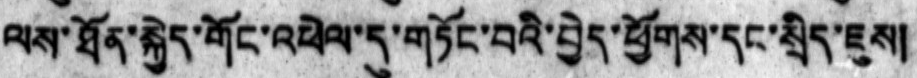ལས་ཐོན་སྐྱེད་གོང་འཕེལ་དུ་གཏོང་བའི་བྱེད་ཕྱོགས་དང་སྲིད་ཇུས།
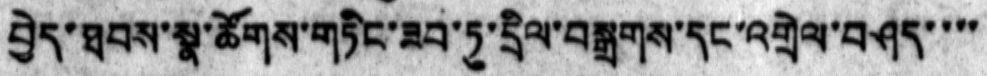བྱེད་ཐབས་སྣ་ཚོགས་གཏིང་ཟབ་ཏུ་དྲིལ་བསྒྲགས་དང་འགྲེལ་བཤད་་་་
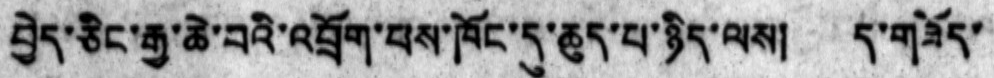བྱེད་ཅིང་རྒྱ་ཆེ་བའི་འབྲོག་པས་ཁོང་དུ་ཆུད་པ་ཉིད་ལས། ད་གཟོད་
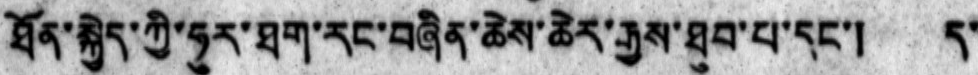ཐོན་སྐྱེད་ཀྱི་ཧུར་ཐག་རང་བཞིན་ཆེས་ཆེར་རྒྱས་ཐུབ་པ་དང་། ད་
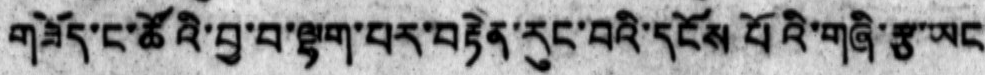གཟོད་ང་ཚོའི་བྱ་བ་ལྷག་པར་བརྟེན་རུང་བའི་དངོས པོའི་གཞི་རྩ་ཡང
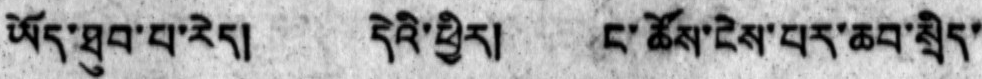ཡོད་ཐུབ་པ་རེད། དེའི་ཕྱིར། ང་ཚོས་ངེས་པར་ཆབ་སྲིད་
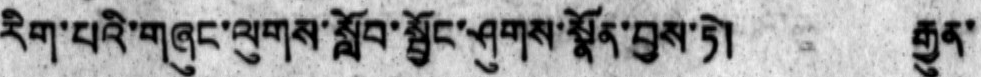རིག་པའི་གཞུང་ལུགས་སློབ་སྦྱོང་ཤུགས་སྣོན་བྱས་ཏེ། རྒྱུན་
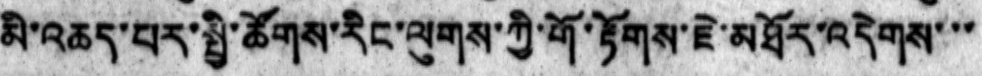མི་འཆད་པར་སྤྱི་ཚོགས་རིང་ལུགས་ཀྱི་གོ་རྟོགས་ཇེ་མཐོར་འདེགས་་་
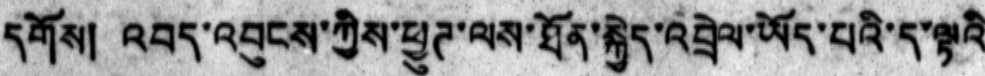དགོས། འབད་འབུངས་ཀྱིས་ཕྱུཊ་ལས་ཐོན་སྐྱེད་འབྲེལ་ཡོད་པའི་ད་ལྟའི
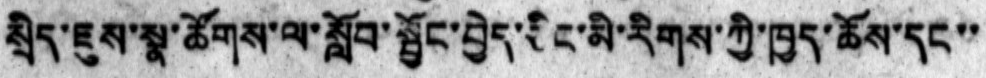སྲིད་ཇུས་སྣ་ཚོགས་ལ་སློབ་སྦྱོང་བྱེད་ཅིང་མི་རིགས་ཀྱི་ཁྱད་ཆོས་དང་་
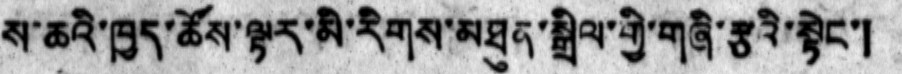ས་ཆའི་ཁྱད་ཚོས་ལྟར་མི་རིགས་མཐུན་སྒྲིལ་གྱི་གཞི་རྩའི་སྟེང་།
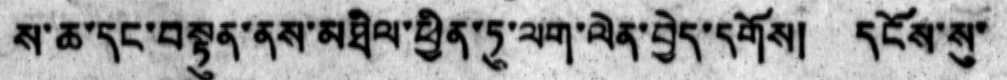ས་ཆ་དང་བསྟུན་ནས་མཐིལ་ཕྱིན་ཏུ་ལག་ལེན་བྱེད་དགོས། དངོས་སུ་
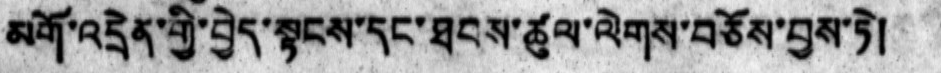མགོ་འདྲེན་གྱི་བྱེད་སྟངས་དང་ཐབས་ཚུལ་ལེགས་བཅོས་བྱས་ཏེ།
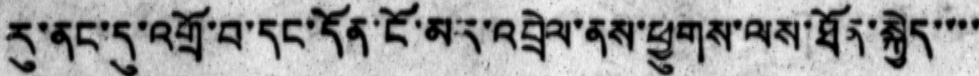རུ་ནང་དུ་འགྲོ་བ་དང་དོན་ངོ་མདུ་འབྲེལ་ནས་ཕྱུགས་ལས་ཐོན་སྐྱེད་་་་
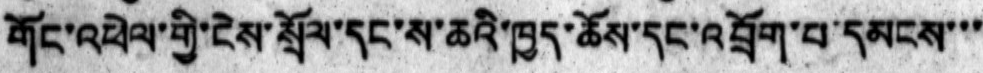གོང་འཕེལ་གྱི་ངེས་སྲོལ་དང་ས་ཆའི་ཁྱད་ཆོས་དང་འབྲོག་བྱ་དམངས་་་
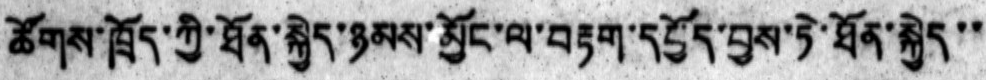ཚོགས་ཁྲོད་ཀྱི་ཐོན་སྐྱེད་ཉམས་མྱོང་ལ་བརྟག་དཔྱོད་བྱས་ཏེ་ཐོན་སྐྱེད་་
